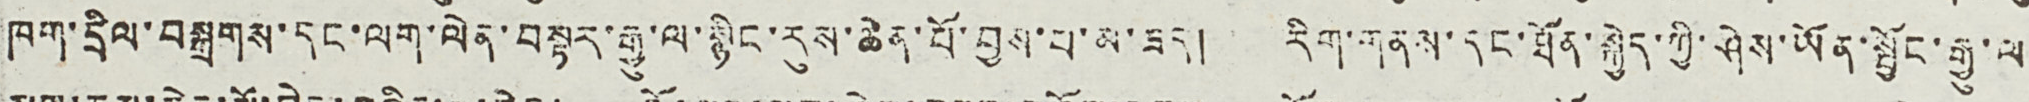ཁག་དྲིལ་བསྒྲགས་དང་ལག་ལེན་བསྟར་རྒྱུ་ལ་སྙིང་རུས་ཆེན་པོ་བྱས་པ་མ་ཟད། རིག་གནས་དང་ཐོན་སྐྱེད་ཀྱི་ཤེས་ཡོན་སྦྱོང་རྒྱུ་ལ
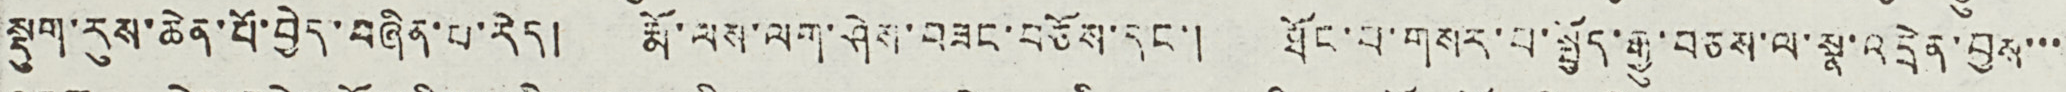སྡུག་རུས་ཆེན་པོ་བྱེད་བཞིན་པ་རེད། རྨོ་ལས་ལག་ཤེས་བཟང་བཅོས་དང་། ཐོང་བ་གསར་བ་སྤྱོད་རྒྱུ་བཅས་ལ་སྣ་འདྲེན་བྱས་་་
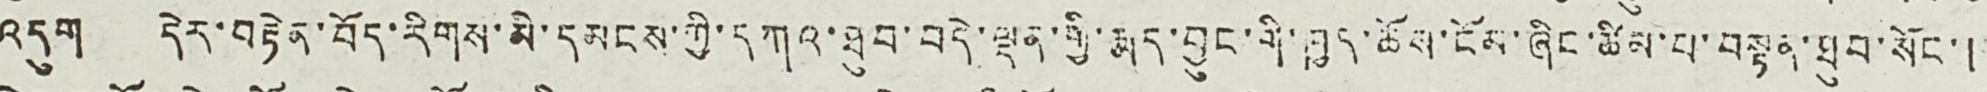འདུག དེར་བརྟེན་བོད་རིགས་མི་དམངས་ཀྱི་དཀའ་ཐུབ་བདེ་ལྡན་གྱི་རྨད་བྱུང་གི་ཁྱད་ཆོས་ངོམ་ཞིང་ཚིམ་པ་བསྟན་ཐུབ་སོང་།
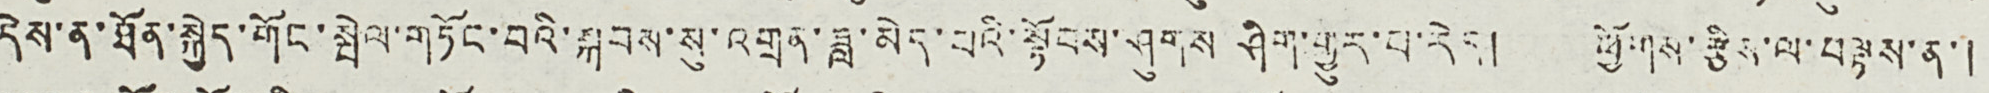དེས་ན་ཐོན་སྐྱེད་གོང་སྤེལ་གཏོང་བའི་སྐབས་སུ་འགྲན་ཟླ་མེད་པའི་སྟོབས་ཤུགས ཤིག་གྱུར་པ་རེད། ཕྱོགས་རྩིས་ལ་བལྟས་ན་།
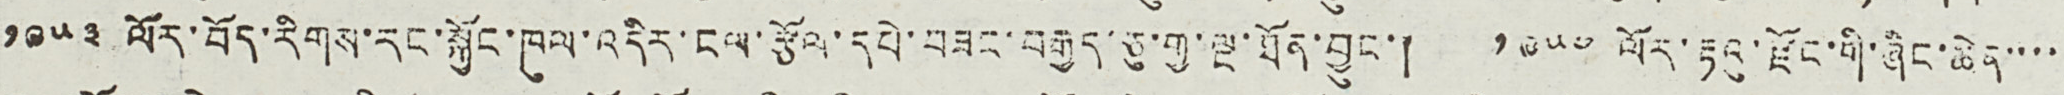༡༩༥༣ ལོར་བོད་རིགས་རང་སྐྱོང་ཁུལ་འདིར་ངལ་རྩོལ་དཔེ་བཟང་བརྒྱད་ཅུ་གྱ་ལྔ་ཐོན་བྱུང་། ༡༩༥༤ ལོར་རྟའུ་རྫོང་གི་ཞིང་ཆེན་་་་
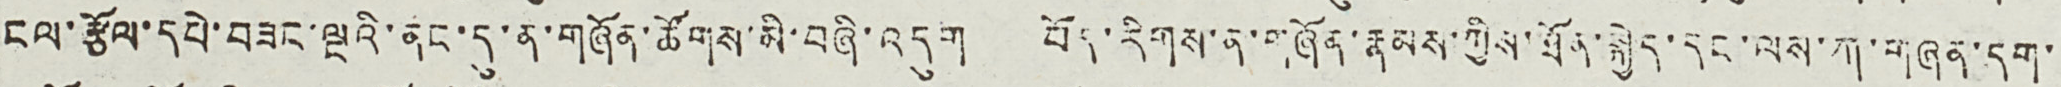ངལ་རྩོལ་དཔེ་བཟང་ལྔའི་ནང་དུ་ན་གཞོན་ཚོགས་མི་བཞི་འདུག བོད་རིགས་ན་གཞོན་རྣམས་ཀྱིས་ཐོན་སྐྱེད་དང་ལས་ཀ་གཞན་དག་
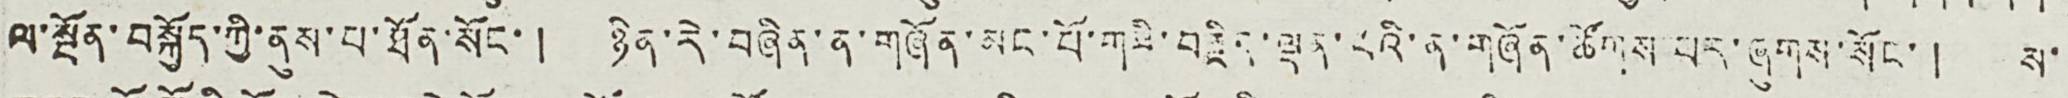ལ་སྔོན་བསྐྱོད་ཀྱི་ནུས་པ་ཐོན་སོང་། ཉིན་རེ་བཞིན་ན་གཞོན་མང་པོ་གཟི་བརྗིད་ལྡན་པའི་ན་གཞོན་ཚོགས་པར་ཞུགས་སོང་། ས་
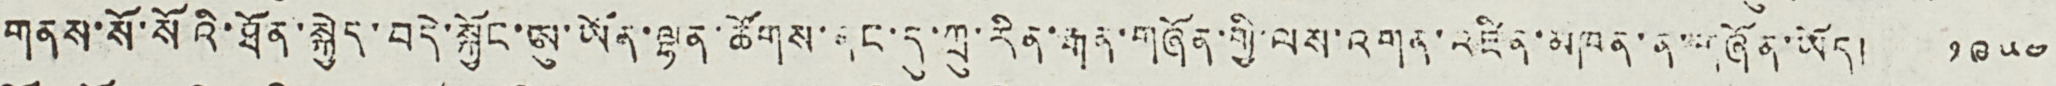གནས་སོ་སོའི་ཐོན་སྐྱེད་བདེ་སྐྱོང་ཨུ་ཡོན་ལྷན་ཚོགས་ནང་དུ་ཀྲུ་རིན་རྒན་གཞོན་གྱི་ལས་འགན་འཛིན་མཁན་ན་གཞོན་ཡོད། ༡༩༥༤
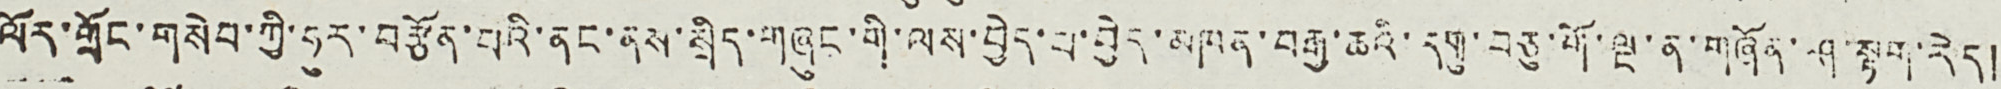ལོར་གྲོང་གསེབ་ཀྱི་ཧུར་བརྩོན་པའི་ནང་ནས་སྲིད་གཞུང་གི་ལས་བྱེད་པ་བྱེད་མཁན་བརྒྱ་ཆའི་དགུ་བཅུ་གོ་ལྔ་ན་གཞོན་ཤ་སྟག་རེད།
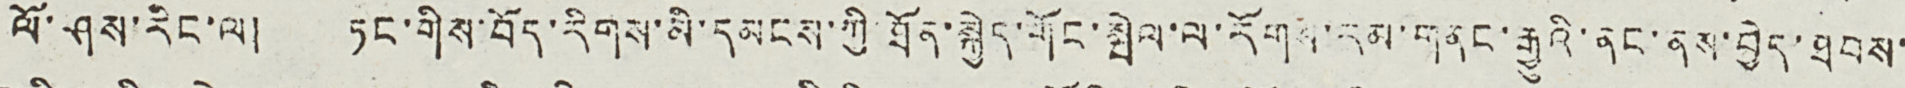ལོ་ཤས་རིང་ལ། ཏང་གིས་བོད་རིགས་མི་དམངས་ཀྱི་ཐོན་སྐྱེད་གོང་སྤེལ་ལ་རོགས་རམ་གནང་རྒྱུའི་ནང་ནས་བྱེད་ཐབས་
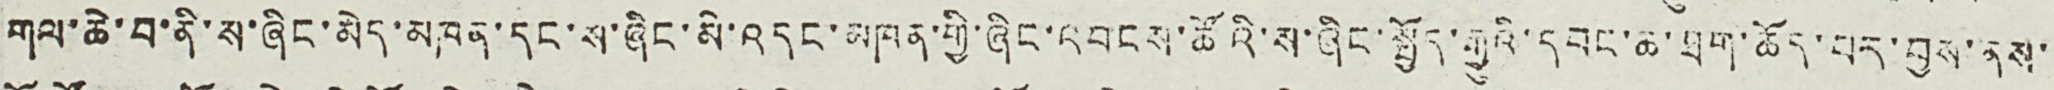གལ་ཆེ་བ་ནི་ས་ཞིང་མེད་མཁན་དང་ས་ཞིང་མི་འདང་མཁན་གྱི་ཞིང་འབངས་ཚོའི་ས་ཞིང་སྤྱོད་རྒྱུའི་དབང་ཆ་ཐག་ཆོད་པར་བྱས་ནས་
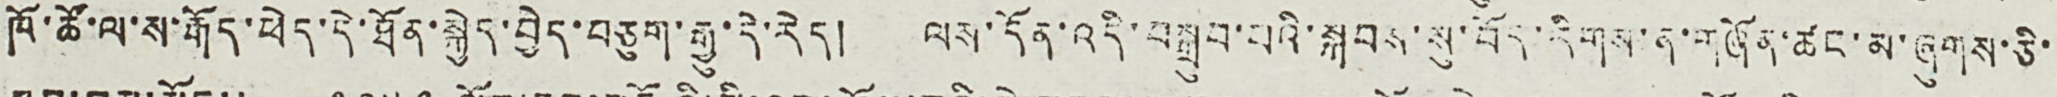ཁོ་ཚོ་ལ་ས་རྒོད་ཕེད་དེ་ཐོན་སྐྱེད་བྱེད་བཅུག་རྒྱུ་དེ་རེད། ལས་དོན་འདི་བསྒྲུབ་པའི་སྐབས་སུ་བོད་རིགས་ན་གཞོན་ཚང་མ་ཞུགས་ཅི་
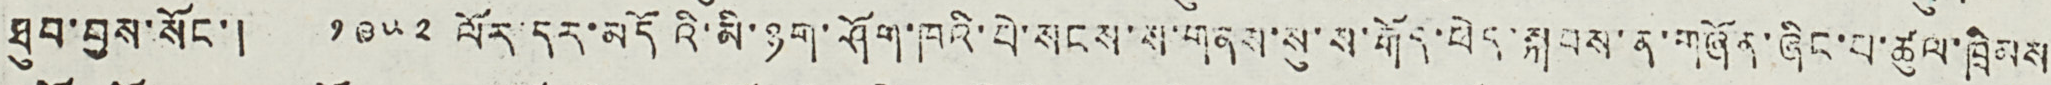ཐུབ་བྱས་སོང་། ༡༩༥༢ ལོར་དར་མདོའི་མི་ཉག་ཤོག་ཁའི་པེ་སངས་ས་གནས་སུ་ས་རྒོད་ཕེད་སྐབས་ན་གཞོན་ཞིང་པ་ཚུལ་ཁྲིམས
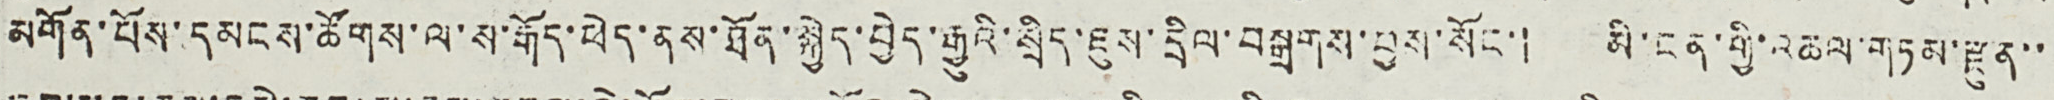མགོན་པོས་དམངས་ཚོགས་ལ་ས་རྒོད་ཕེད་ནས་ཐོན་སྐྱེད་བྱེད་རྒྱུའི་སྲིད་ཇུས་དྲིལ་བསྒྲགས་བྱས་སོང་། མི་ངན་གྱི་འཆལ་གཏམ་རྫུན་་
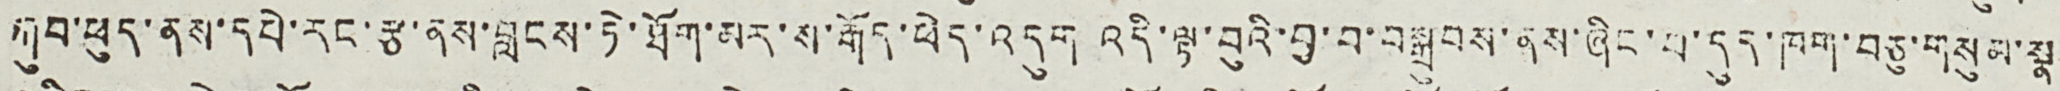རྐུབ་ཕུད་ནས་དཔེ་རང་རྩ་ནས་བླངས་ཏེ་ཐོག་མར་ས་རྒོད་ཕེད་འདུག འདི་ལྟ་བུའི་བྱ་བ་བསྒྲུབས་ནས་ཞིང་པ་དུད་ཁག་བཅུ་གསུམ་སྣ
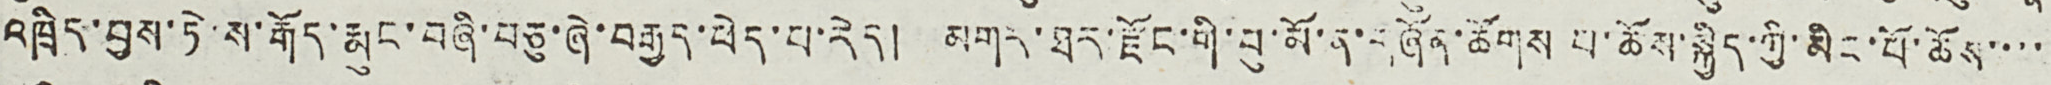འཁྲིད་བྱས་ཏེ་ས་རྒོད་རྨུང་བཞི་བཅུ་ཞེ་བརྒྱད་ཕེད་པ་རེད། མགར་ཐར་རྫོང་གི་བུ་མོ་ན་གཞོན་ཚོགས པ་ཆོས་སྐྱིད་ཀྱི་མིང་པོ་ཆོས་་་་
